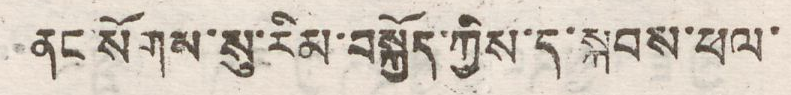ནང་སོགས་སུ་རིམ་བསྐྱོད་ཀྱིས་ད་སྐབས་ཕལ་
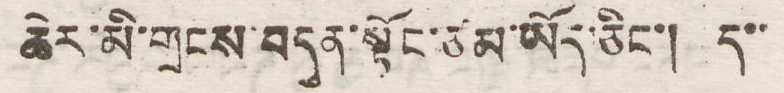ཆེར་མི་གྲངས་བདུན་སྟོང་ཙམ་ཡོད་ཅིང་། ད་་
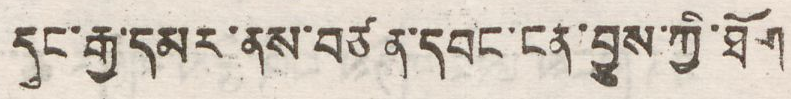དང་རྒྱ་དམར་ནས་བཙན་དབང་ངན་བྱུས་ཀྱི་ཐོག
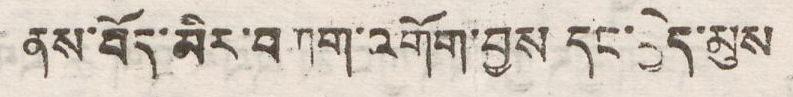ནས་བོད་མིར་བཀག་འགོག་བྱས དང་བྱེད་མུས
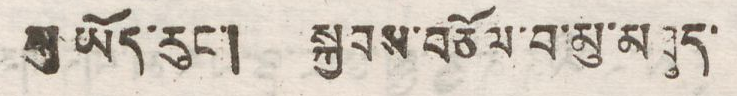གུ་ཡོད་རུང་། སྐྱབས་བཅོལ་བ་མུ་མཐུད་
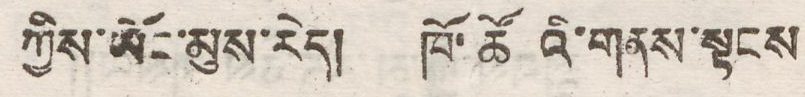ཀྱིས་ཡོང་མུས་རེད། ཁོ་ཚོའི་གནས་སྟངས
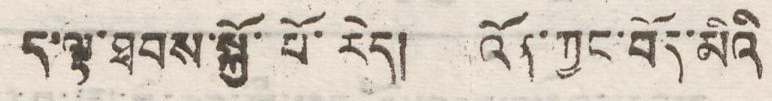ད་ལྟ་ཐབས་སྐྱོ་པོ་རེད། འོན་ཀྱང་བོད་མིའི
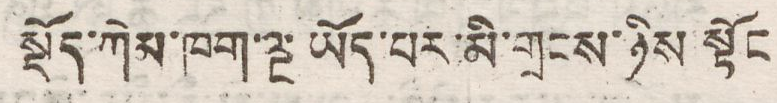སྡོད་ཀེམ་ཁག་ལྔ ཡོད་པར་མི་གྲངས་ཉིས་སྟོང
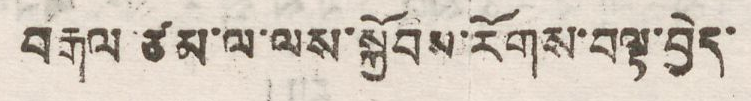བརྒལ་ཙམ་ལ་ལས་སྐྱོབས་རོགས་བལྟ་བྱེད་
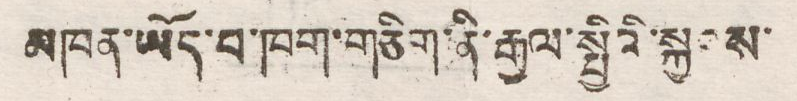མཁན་ཡོད་པ་ཁག་གཅིག་ནི་རྒྱལ་སྤྱིའི་སྐྱབས་
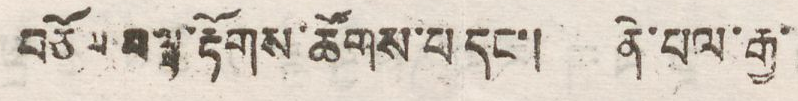བཅོལ་བལྟ་རྟོགས་ཚོགས་པ་དང་། ནེ་པལ་རྒྱ་
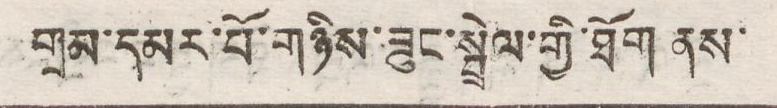གྲམ་དམར་པོ་གཉིས་ཟུང་སྦྲེལ་གྱི་ཐོག ནས་
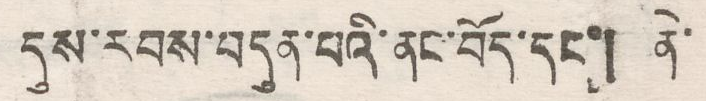དུས་རབས་བདུན་པའི་ནང་བོད་དང་། ནེ་
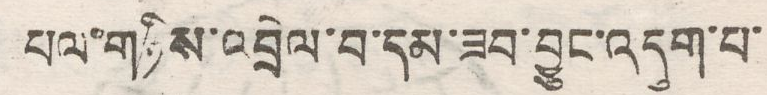པལ་གཉིས་འབྲེལ་བ་དམ་ཟུབ་བྱུང་འདུག་པ་
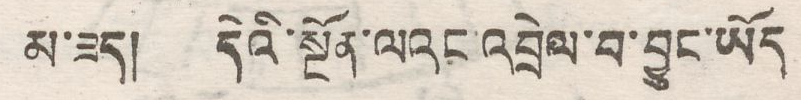མ་ཟད། དེའི་སྔོན་ལའང་འབྲེལ་བ་བྱུང་ཡོད་
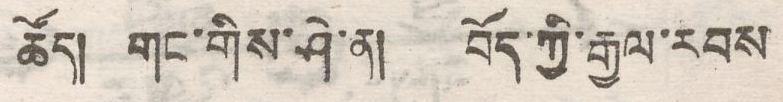ཚོད། གང་གིས་ཤེ་ན། བོད་ཀྱི་རྒྱལ་རབས
